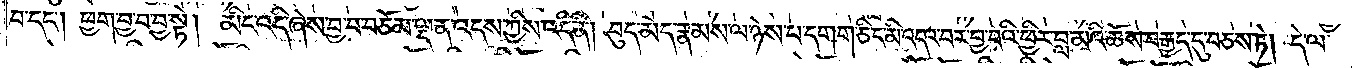བ་དང༌། ཕྱག་བྱ་བ་བྱ་སྟེ། མིང་འདི་ཞེས་བྱ་བ་བཅོམ་ལྡན་འདས་ཀྱིས་འདི་ནི། བུད་མེད་རྣམས་ལ་ཉེས་པ་དགག་ཅིང་མི་འདའ་བར་བྱ་བའི་ཕྱིར་བླ་མའི་ཆོས་བརྒྱད་དུ་བཅས་ཏེ། དེ་ལ་
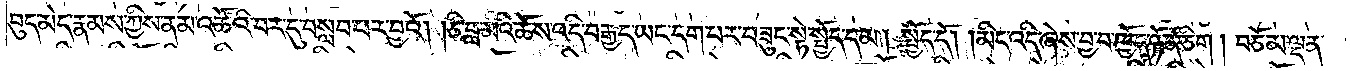བུད་མེད་རྣམས་ཀྱིས་ནམ་འཚོའི་བར་དུ་བསླབ་པར་བྱའོ། །ཅི་བླ་མའི་ཆོས་འདི་བརྒྱད་ཡང་དག་པར་བཟུང་སྟེ་སྤྱོད་དམ། སྤྱོད་དོ། །མིང་འདི་ཞེས་བྱ་བ་ཁྱོད་ཉོན་ཅིག །བཅོམ་ལྡན་
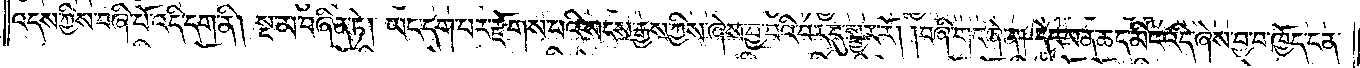འདས་ཀྱིས་བཞི་པོ་འདི་དག་ནི། སྔ་མ་བཞིན་ཏེ། ཡང་དག་པར་རྫོགས་པའི་སངས་རྒྱས་ཀྱིས་ཞེས་བྱ་བའི་བར་དུ་སྦྱར་རོ། །བཞི་གང་ཞེ་ན། དེང་ཕན་ཆད་མིང་འདི་ཞེས་བྱ་བ་ཁྱོད་ངན་
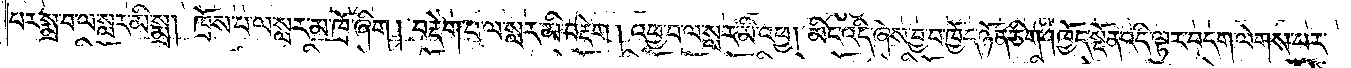པར་སྨྲ་བ་ལ་སླར་མི་སྨྲ། ཁྲོས་པ་ལ་སླར་མ་ཁྲོ་ཞིག །བརྡེག་པ་ལ་སླར་མི་བརྡེག །འཕྱ་བ་ལ་སླར་མི་འཕྱ། མིང་འདི་ཞེས་བྱ་བ་ཁྱོད་ཉོན་ཅིག །ཁྱོད་སྔོན་འདི་ལྟར་བདག་ལེགས་པར་
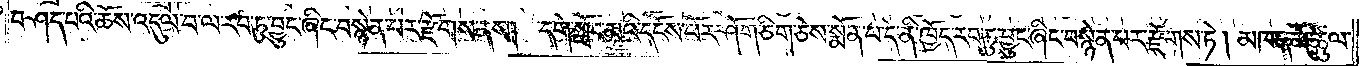བཤད་པའི་ཆོས་འདུལ་བ་ལ་རབ་ཏུ་བྱུང་ཞིང་བསྙེན་པར་རྫོགས་ནས། དགེ་སློང་མའི་དངོས་པོར་ཤོག་ཅིག་ཅེས་སྨོན་པ་དེ་ནི་ཁྱོད་རབ་ཏུ་བྱུང་ཞིང་བསྙེན་པར་རྫོགས་ཏེ། མཁན་མོ་ཚུལ་
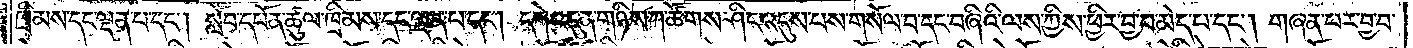ཁྲིམས་དང་ལྡན་པ་དང༌། སློབ་དཔོན་ཚུལ་ཁྲིམས་དང་ལྡན་པ་དང༌། དགེ་འདུན་གཉིས་ཀ་ཚོགས་ཤིང་འདུས་པས་གསོལ་བ་དང་བཞིའི་ལས་ཀྱིས་ཕྱིར་བྱ་བ་མེད་པ་དང༌། གཞན་པར་བྱ་བ་
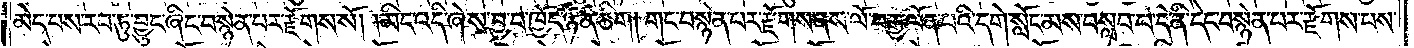མེད་པས་རབ་ཏུ་བྱུང་ཞིང་བསྙེན་པར་རྫོགས་སོ། །མིང་འདི་ཞེས་བྱ་བ་ཁྱོད་ཉོན་ཅིག །གང་བསྙེན་པར་རྫོགས་ནས་ལོ་བརྒྱ་ལོན་པའི་དགེ་སློང་མས་བསླབ་པ་དེ་ནི་དེང་བསྙེན་པར་རྫོགས་པས་
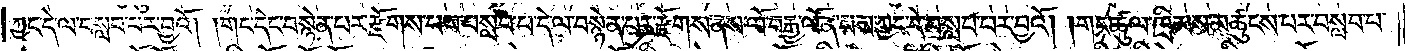ཀྱང་དེ་ལ་བསླབ་པར་བྱའོ། །གང་དེང་བསྙེན་པར་རྫོགས་པས་བསླབ་པ་དེ་ལ་བསྙེན་པར་རྫོགས་ནས་ལོ་བརྒྱ་ལོན་པས་ཀྱང་དེ་བསླབ་པར་བྱའོ། །གང་ཚུལ་ཁྲིམས་མཚུངས་པར་བསླབ་པ་
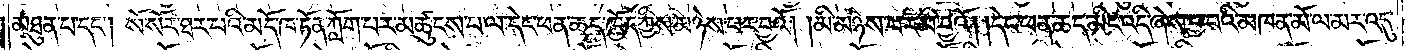མཐུན་པ་དང༌། སོ་སོར་ཐར་པའི་མདོ་ཁ་ཏོན་ཀློག་པར་མཚུངས་པ་ལ་དེང་ཕན་ཆད་ཁྱོད་ཀྱིས་མཉེས་པར་བྱའོ། །མི་མཉེས་པར་མི་བྱའོ། །དེང་ཕན་ཆད་མིང་འདི་ཞེས་བྱ་བའི་མཁན་མོ་ལ་མར་འདུ་
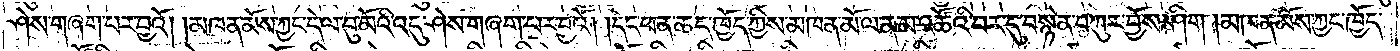ཤེས་གཞག་པར་བྱའོ། །མཁན་མོས་ཀྱང་དེ་ལ་བུ་མོའི་འདུ་ཤེས་གཞག་པར་བྱའོ། །དེང་ཕན་ཆད་ཁྱོད་ཀྱིས་མཁན་མོ་ལ་ནམ་འཚོའི་བར་དུ་བསྙེན་བཀུར་བྱོས་ཤིག །མཁན་མོས་ཀྱང་ཁྱོད་
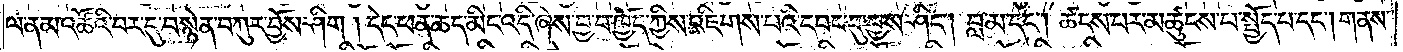ལ་ནམ་འཚོའི་བར་དུ་བསྙེན་བཀུར་བྱོས་ཤིག །དེང་ཕན་ཆད་མིང་འདི་ཞེས་བྱ་བ་ཁྱོད་ཀྱིས་འཇིགས་པའི་དབང་དུ་བྱས་ཤིང༌། བླ་མ་དང༌། ཚངས་པར་མཚུངས་པ་སྤྱོད་པ་དང༌། གནས་
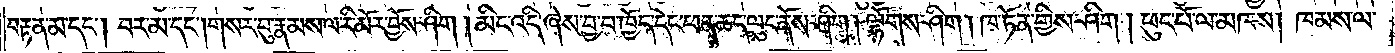བརྟན་མ་དང༌། བར་མ་དང༌། གསར་བུ་རྣམས་ལ་རི་མོར་བྱོས་ཤིག །མིང་འདི་ཞེས་བྱ་བ་ཁྱོད་དེང་ཕན་ཆད་ལུང་ནོས་ཤིག །ལྷོགས་ཤིག །ཁ་ཏོན་གྱིས་ཤིག །ཕུང་པོ་ལ་མཁས། ཁམས་ལ་
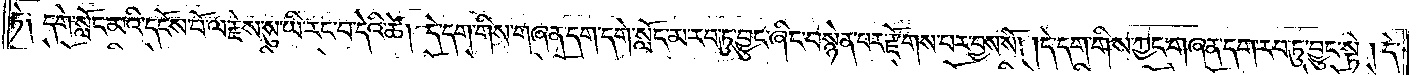ཏེ༑ དགེ་སློང་མའི་དངོས་པོ་ལ་རྗེས་སུ་ཡི་རང་བ་དེའི་ཚེ། དེ་དག་གིས་གཞན་དག་དགེ་སློང་མ་རབ་ཏུ་བྱུང་ཞིང་བསྙེན་པར་རྫོགས་པར་བྱས་སོ། །དེ་དག་གིས་ཀྱང་གཞན་དག་རབ་ཏུ་བྱུང་སྟེ། དེ་
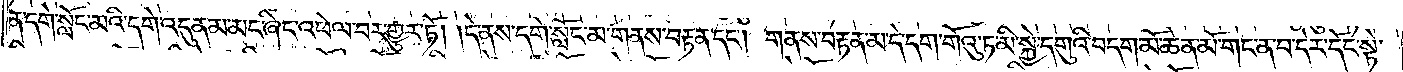ན་དགེ་སློང་མའི་དགེ་འདུན་མ་མང་ཞིང་འཕེལ་བར་གྱུར་ཏོ། །དེ་ནས་དགེ་སློང་མ་གནས་བརྟན་དང༌། གནས་བརྟན་མ་དེ་དག་གོའུ་ཏ་མི་སྐྱེ་དགུའི་བདག་མོ་ཆེན་མོ་གང་ན་བ་དེར་དོང་སྟེ་
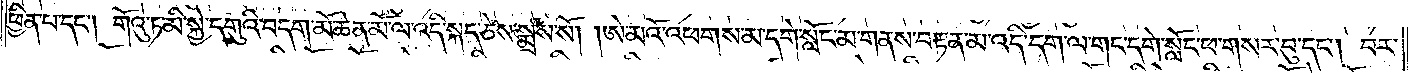ཕྱིན་པ་དང༌། གོའུ་ཏ་མི་སྐྱེ་དགུའི་བདག་མོ་ཆེན་མོ་ལ་འདི་སྐད་ཅེས་སྨྲས་སོ། །ཨེ་མའོ་འཕགས་མ་དགེ་སློང་མ་གནས་བརྟན་མ་འདི་དག་ལ་གང་དགེ་སློང་ཕ་གསར་བུ་དང༌། བར་
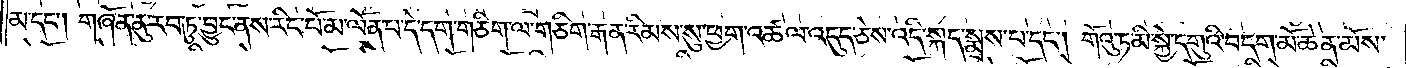མ་དང༌། གཞོན་ནུ་རབ་ཏུ་བྱུང་ནས་རིང་པོ་མ་ལོན་པ་དེ་དག་གཅིག་ལ་གཅིག་རྒན་རིམས་སུ་ཕྱག་འཚལ་འདུད་ཅེས་འདི་སྐད་སྨྲས་པ་དང༌། གོའུ་ཏ་མི་སྐྱེ་དགུའི་བདག་མོ་ཆེན་མོས་
